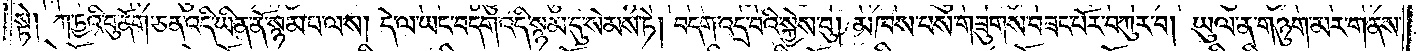སྟེ། ཀ་ཏྱའི་ནོག་ཅན་འདི་ཡིན་ནོ་སྙམ་པ་ལས། དེ་ལ་ཡང་བདག་འདི་སྙམ་དུ་སེམས་ཏེ། བདག་འདྲ་བའི་སྐྱེས་བུ། མཁས་པས་གཟུགས་བཟང་པོར་བཀུར་བ། ཡུལ་ན་གཉུག་མར་གནས་
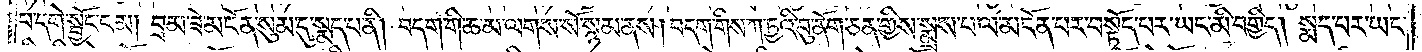པ་དགེ་སྦྱོང་ངམ། བྲམ་ཟེ་མངོན་སུམ་དུ་སྨད་པ་ནི། བདག་གི་ཆ་མ་ལགས་སོ་སྙམ་ནས། བདག་གིས་ཀ་ཏྱའི་བུ་ནོག་ཅན་གྱིས་སྨྲས་པ་ལ་མངོན་པར་བསྟོད་པར་ཡང་མི་བགྱིད། སྨད་པར་ཡང་
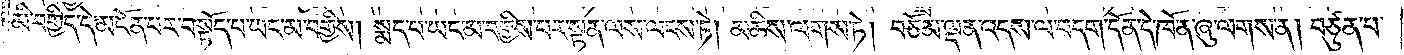མི་བགྱིད་དེ་མངོན་པར་བསྟོད་པ་ཡང་མ་བགྱིས། །སྨད་པ་ཡང་མ་བགྱིས་པར་སྟན་ལས་ལངས་ཏེ། མཆིས་ལགས་ཏེ། བཅོམ་ལྡན་འདས་ལ་བདག་དོན་དེ་ཁོ་ན་ཞུ་ལགས་ན། བཙུན་པ་
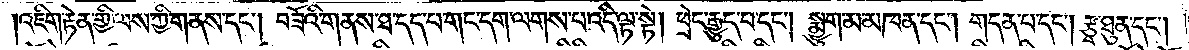འཇིག་རྟེན་གྱི་ལས་ཀྱི་གནས་དང༌། བཟོའི་གནས་ཐ་དད་པ་གང་དག་ལགས་པ་འདི་ལྟ་སྟེ། ཕྲེང་རྒྱུད་པ་དང༌། སྨྱུག་མ་མཁན་དང༌། གདན་པ་དང༌། རྩྭ་ཐུན་དང༌།
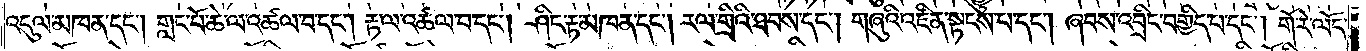འདུལ་མཁན་དང༌། གླང་པོ་ཆེ་ལ་འཚལ་བ་དང༌། རྟ་ལ་འཚལ་བ་དང༌། ཤིང་རྟ་མཁན་དང༌། རལ་གྲིའི་ཐབས་དང༌། གཞུའི་འཛིན་སྟངས་པ་དང༌། ཞབས་འབྲིང་བགྱིད་བ་དང༌། གོ་རེ་ལོང་
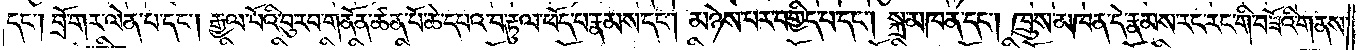དང༌། བྲོ་གར་ལེན་པ་དང༌། རྒྱལ་པོའི་བུ་རབ་གནོན་ཚན་པོ་ཆེ་དཔའ་བ་རྟུལ་ཕོད་པ་རྣམས་དང༌། མཉེས་པར་བགྱིད་པ་དང༌། སྐྲ་མཁན་དང༌། ཁྲུས་མཁན་དེ་རྣམས་རང་རང་གི་བཟོའི་གནས་
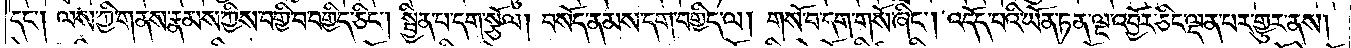དང༌། ལས་ཀྱི་གནས་རྣམས་ཀྱིས་བགྱི་བ་བགྱིད་ཅིང༌། སྦྱིན་པ་དག་སྩོལ། བསོད་ནམས་དག་བགྱིད་ལ། གསོ་བ་དག་གསོ་ཞིང༌། འདོད་པའི་ཡོན་ཏན་ལྔ་འབྱོར་ཅིང་ལྡན་པར་གྱུར་ནས།
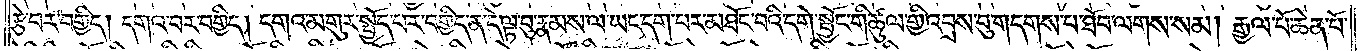རྩེ་བར་བགྱིད། དགའ་བར་བགྱིད། དགའ་མགུར་སྤྱོད་པར་བགྱིད་ན་དེ་ལྟ་བུ་རྣམས་ལ་ཡང་དག་པར་མ་ཐོང་བའི་དགེ་སྦྱོང་གི་ཚུལ་གྱི་འབྲས་བུ་གདགས་པ་ཐོབ་ལགས་སམ། རྒྱལ་པོ་ཆེན་པོ་
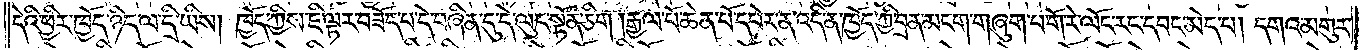དེའི་ཕྱིར་ཁྱོད་ཉིད་ལ་དྲི་ཡིས། ཁྱོད་ཀྱིས་ཇི་ལྟར་བཟོད་པ་དེ་བཞིན་དུ་དེ་ལུང་སྟོན་ཅིག །རྒྱལ་པོ་ཆེན་པོ་དཔེར་ན་འདི་ན་ཁྱོད་ཀྱི་བྲན་མངག་གཞུག་པ་གོ་རེ་ལོང་རང་དབང་མེད་པ། དགའ་མགུར་
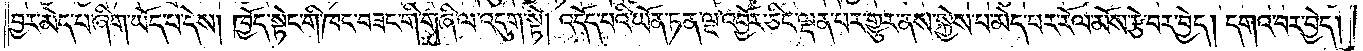བྱར་མེད་པ་ཞིག་ཡོད་པ་དེས། ཁྱོད་སྟེང་གི་ཁང་བཟང་གི་གཞི་ལ་འདུག་སྟེ། འདོད་པའི་ཡོན་ཏན་ལྔ་འབྱོར་ཅིང་ལྡན་པར་གྱུར་ནས་སྐྱེས་པ་མེད་པར་རོལ་མོས་རྩེ་བར་བྱེད། དགའ་བར་བྱེད།
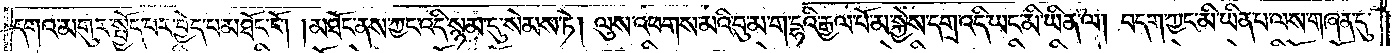དགའ་མགུར་སྤྱོད་པར་བྱེད་པ་མཐོང་ངོ༌། །མཐོང་ནས་ཀྱང་འདི་སྙམ་དུ་སེམས་ཏེ། ལུས་འཕགས་མའི་བུ་མ་ག་དྷའི་རྒྱལ་པོ་མ་སྐྱེས་དགྲ་འདི་ཡང་མི་ཡིན་ལ། བདག་ཀྱང་མི་ཡིན་པ་ལས་གཞན་དུ་
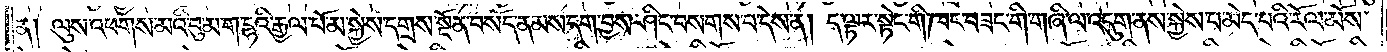ན། ལུས་འཕགས་མའི་བུ་མ་ག་དྷའི་རྒྱལ་པོ་མ་སྐྱེས་དགྲས་སྔོན་བསོད་ནམས་བསོད་ནམས་དག་བྱས་ཤིང་བསགས་པ་དེས་ན། ད་ལྟར་སྟེང་གི་ཁང་བཟང་གི་གཞི་ལ་འདུག་ནས་སྐྱེས་པ་མེད་པའི་རོལ་མོས་
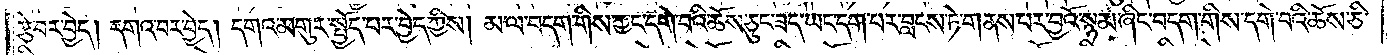རྩེ་བར་བྱེད། དགའ་བར་བྱེད། དགའ་མགུར་སྤྱོད་པར་བྱེད་ཀྱིས། མ་ལ་བདག་གིས་ཀྱང་དགེ་བའི་ཆོས་ཅུང་ཟད་ཡང་དག་པར་བླངས་ཏེ་གནས་པར་བྱའོ་སྙམ་ཞིང་བདག་གིས་དགེ་བའི་ཆོས་ཅི་
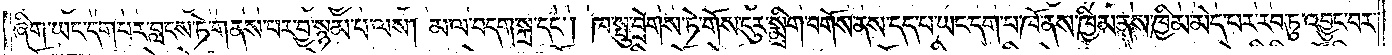ཞིག་ཡང་དག་པར་བླངས་ཏེ་གནས་པར་བྱ་སྙམ་པ་ལས། མ་ལ་བདག་སྐྲ་དང༌། ཁས་པུ་བྲེགས་ཏེ་གོས་ངུར་སྨྲིག་བགོས་ནས་དད་པ་ཡང་དག་པ་ཁོ་ན་ཁྱིམ་ནས་ཁྱིམ་མེད་པར་རབ་ཏུ་འབྱུང་བར་
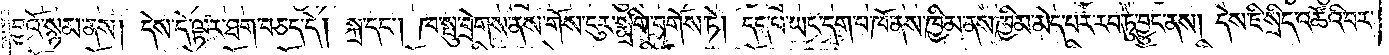བྱའོ་སྙམ་ནས། དེས་དེ་ལྟར་ཐག་བཅད་དེ། སྐྲ་དང༌། ཁ་སྤུ་བྲེགས་ནས་གོས་ངུར་སྨྲིག་བགོས་ཏེ། དད་པ་ཡང་དག་པ་ཁོ་ནས་ཁྱིམ་ནས་ཁྱིམ་མེད་པར་རབ་ཏུ་བྱུང་ནས། དེས་ཇི་སྲིད་འཚོའི་བར་
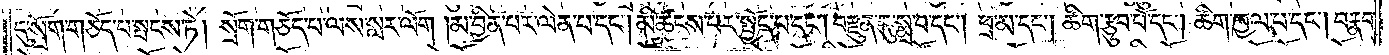དུ་སྲོག་གཅོད་པ་སྤངས་ཏེ། སྲོག་གཅོད་པ་ལས་སླར་ལོག །མ་བྱིན་པར་ལེན་པ་དང༌། མི་ཚངས་པར་སྤྱོད་པ་དང༌། བརྫུན་དུ་སྨྲ་བ་དང༌། ཕྲ་མ་དང༌། ཚིག་རྩུབ་པོ་དང༌། ཚིག་ཁྱལ་པ་དང༌། བརྣབ་
